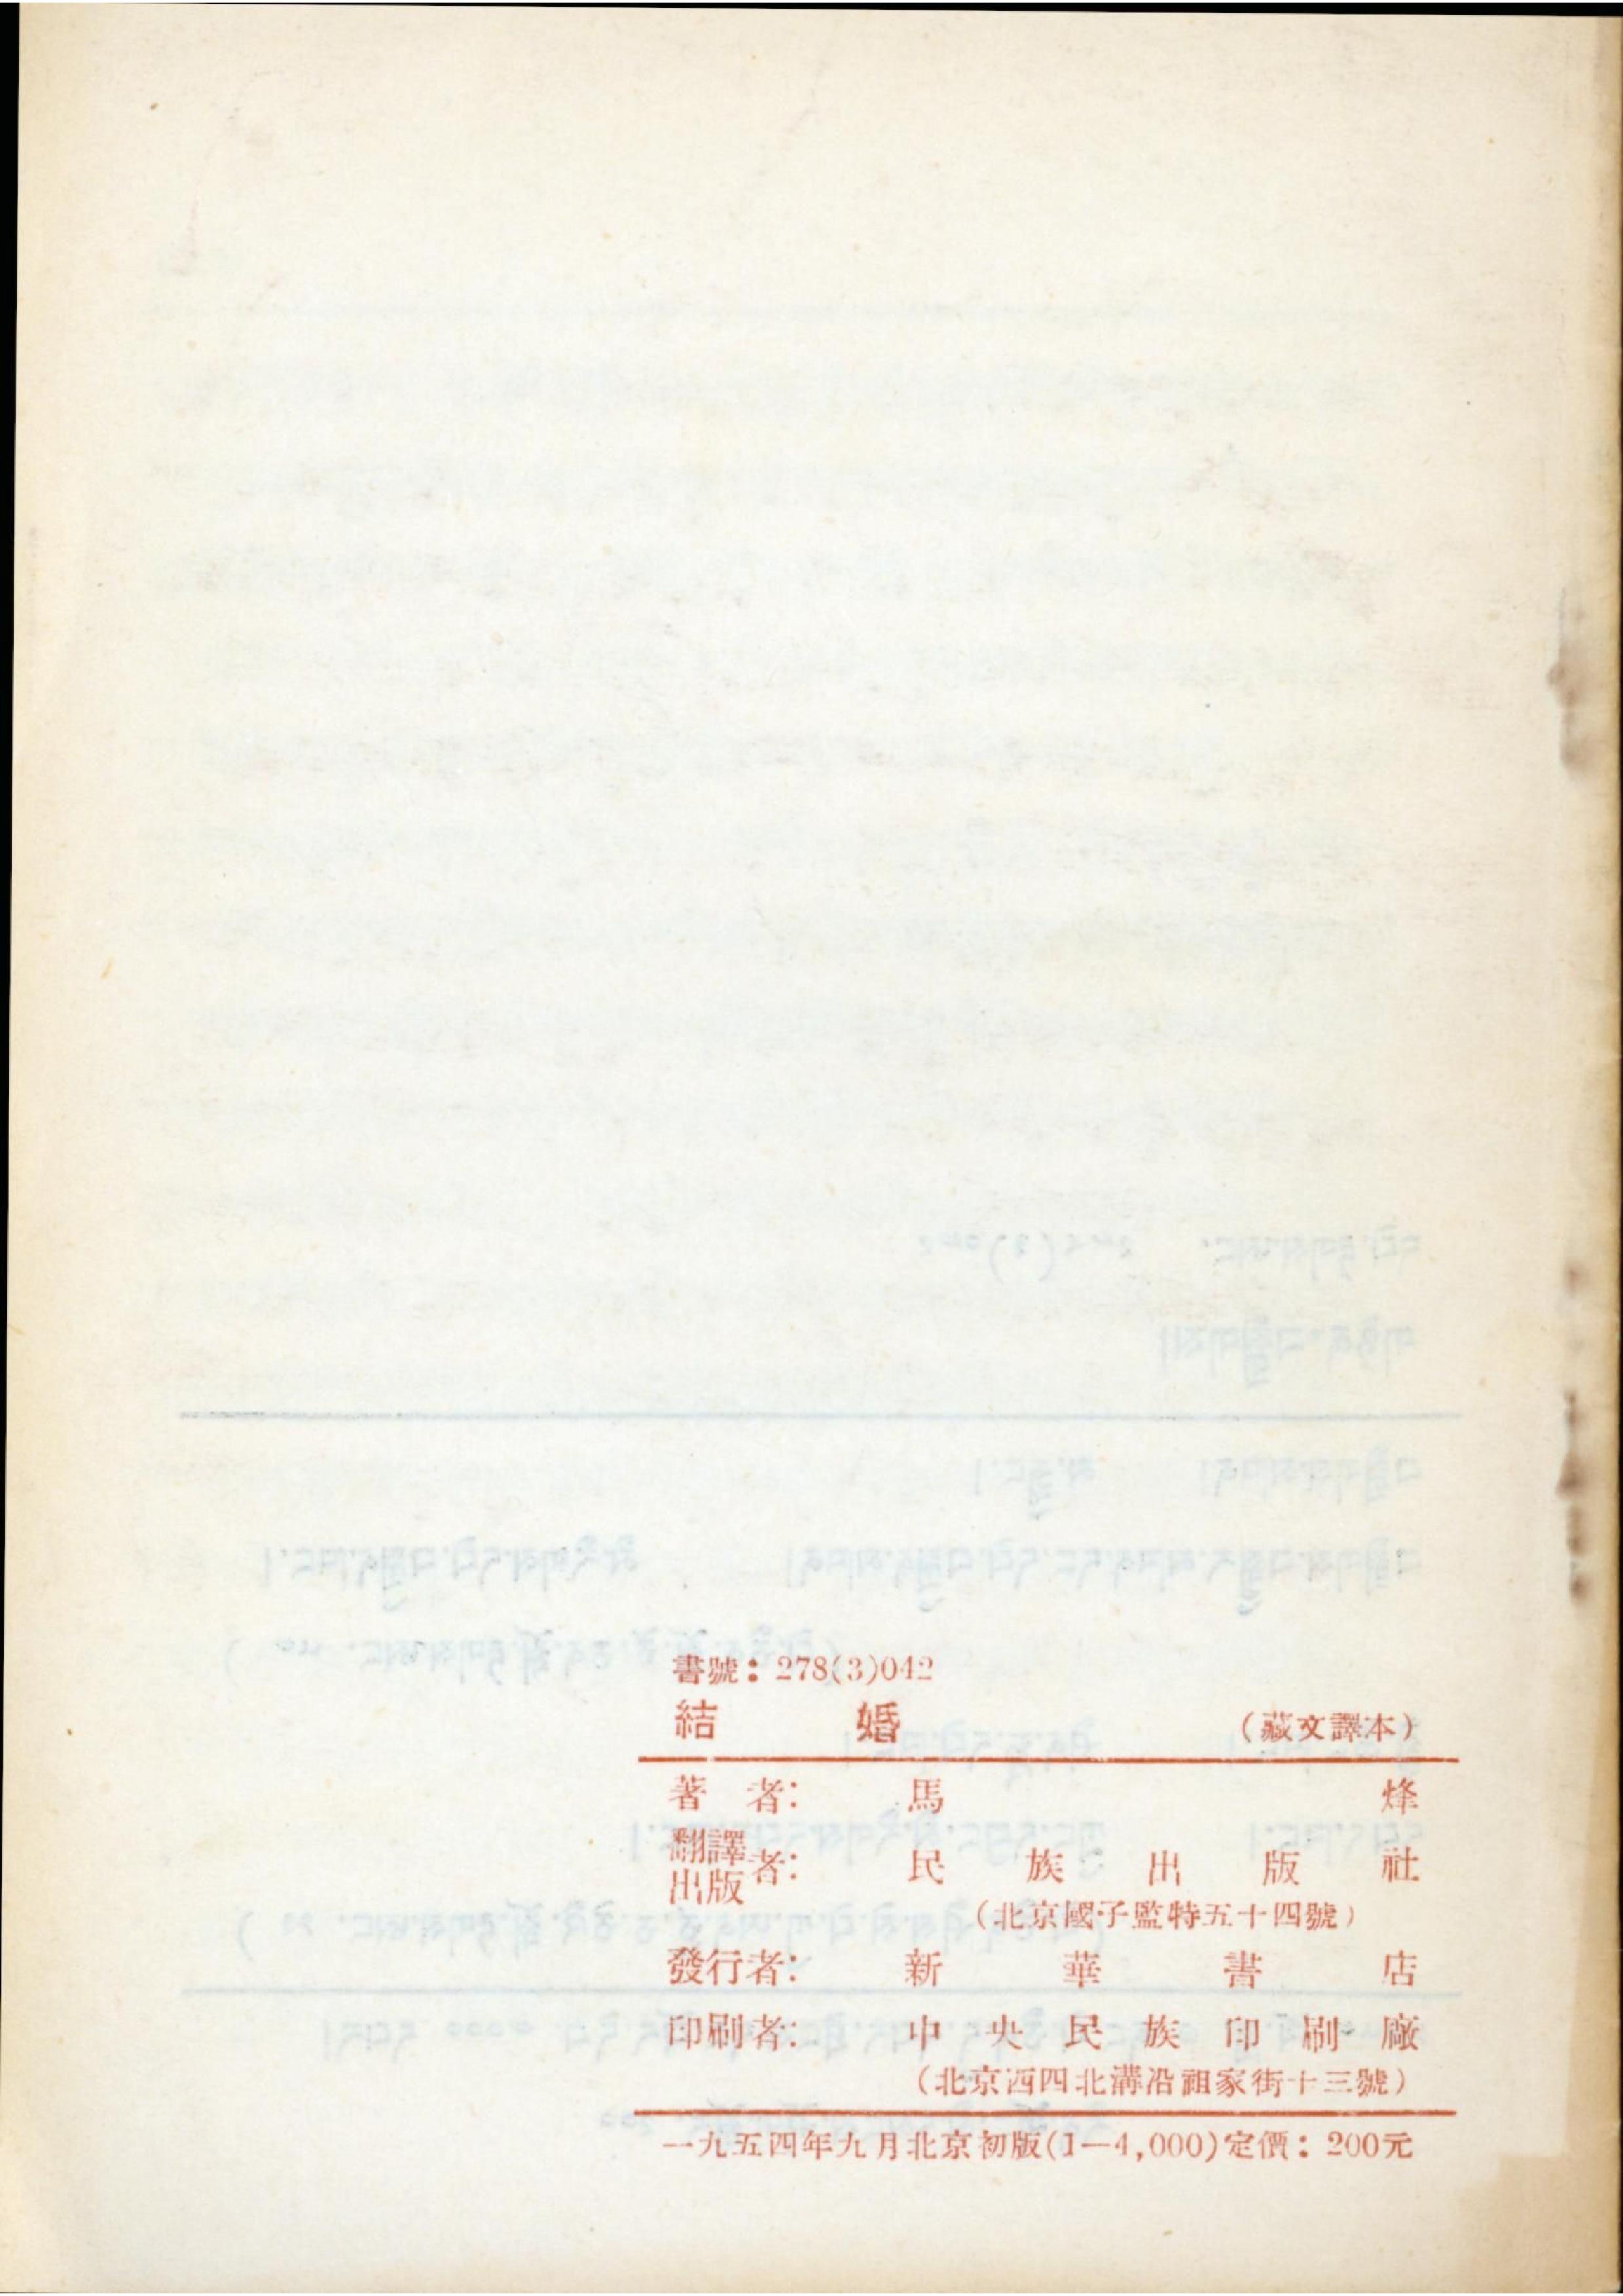書號：268(3)042
結 婚 （藏文譯本）
著 者： 馬 烽
翻譯
出版者： 民 族 出 版 社
（北京國子監特五十四號）
發行者： 新 華 書 店
印刷者： 中 央 民 族 印 刷 廠
（北京西四北溝沿祖家街十三號）
一九五四年九月北京初版（1—4,000）定價：200元
